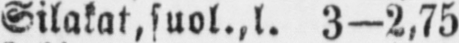Silakat,suol.,l. 3-2,75
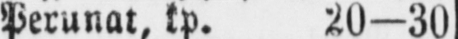Perunat, kp. 20—30
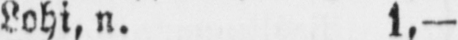Lohi, n. 1,—
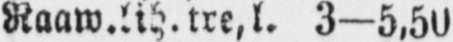Kaaw.lih. tre. l. 3—5,50
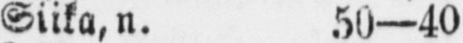Siika, n. 50—40
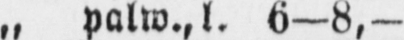„ palw., l. 6-8,-
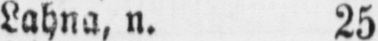Lahna, n. 25—30
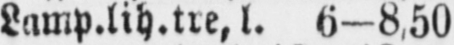Lamp.lih.tte. l. 6-8,50
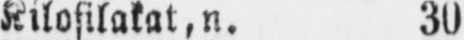Kilosilakat,n. 30
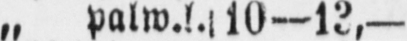„ palw.l. 10—13,—
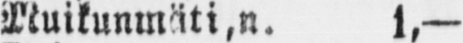Muikunmäti,n. 1,—
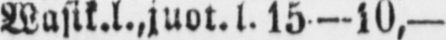Wasik.l., juot.l. 15— 10,—
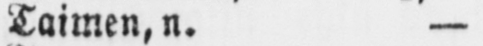Taimen, n. -
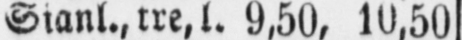Sianl., tre, l. 9,50, 10,50
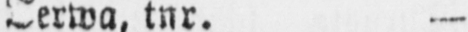Terwa, tnr. -
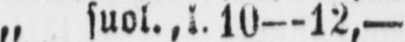„ suol., l. 10— 12,—
